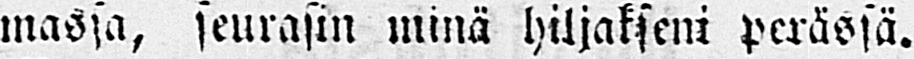massa, seurasin minä hiljakseni perässä.
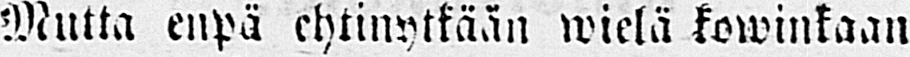Mutta enpä ehtinytkään wielä kowinkaan
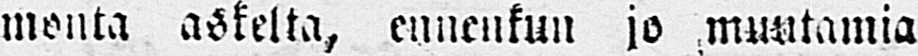monta askelta, ennenkun jo muntamia
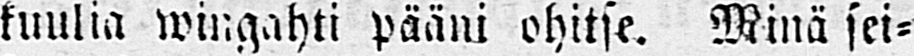kuulia wingahti pääni ohitse. Minä sei-
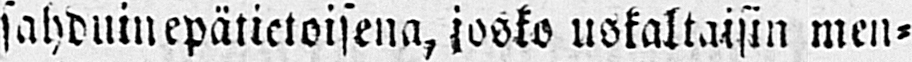sahduin epätietoisena, josko uskaltaisin men-
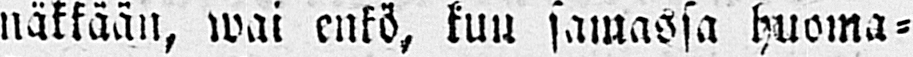näkkään, wai enkö, kun samassa huoma-
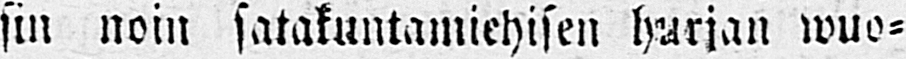sin noin satakuntamiehisen hurjan wuo-
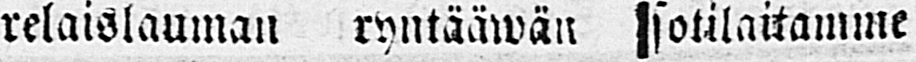relaislauman ryntäämän sotilaitamme
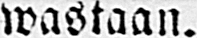wastaan.
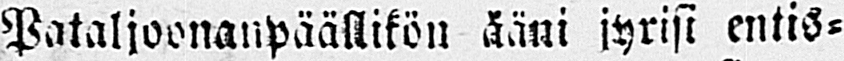Pataljoonanpäällikön ääni jyrisi entis-
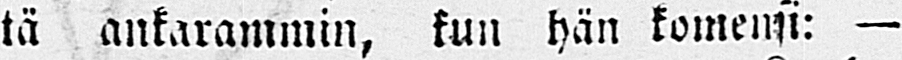tä ankarammin, kun hän komensi: —
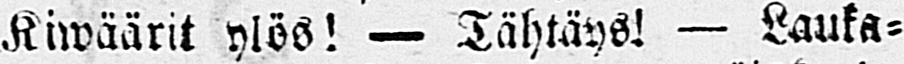Kiwäärit ylös! — Tähtäys! — Lauka-
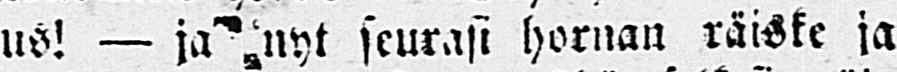us! — ja nyt seurasi hornan räiske ja
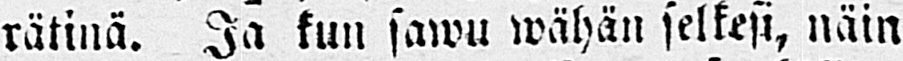rätinä. Ja kun sawu wähän selkesi, näin
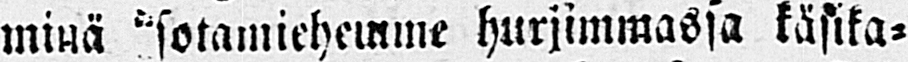minä sotamiehemme hurjimmassa käsika-
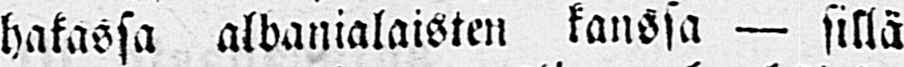hakassa albanialaisten kanssa — sillä
